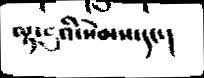ལྟ་བུའི་སེམས་དང་།
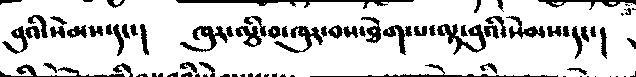བུའི་སེམས་དང་།   ཁུར་ལྕི་བ་ཁུར་བས་ཐེག་པ་ལྟ་བུའི་སེམས་དང་།
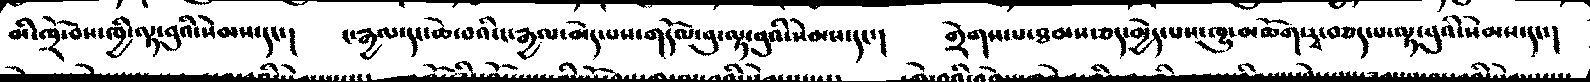མི་ཁྲོ་བོས་ཁྱི་ལྟ་བུའི་སེམས་དང་།  ང་རྒྱལ་དང་ཆེ་བའི་ང་རྒྱལ་མེད་པས་གདོལ་བུ་ལྟ་བུའི་སེམས་དང་།    གྲོགས་པ་ཐམས་ཅད་མྱེད་པས་ཁྱུ་མཆོག་རྭ་བཅད་པ་ལྟ་བུའི་སེམས་དང་།
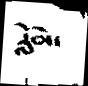རློམ་
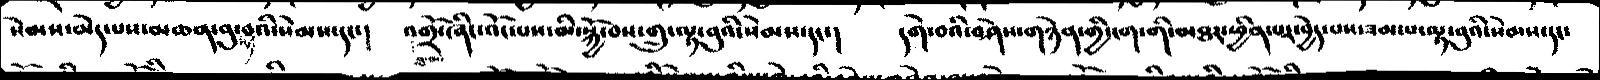སེམས་མེད་པས་མཆན་བུ་བའི་སེམས་དང་།   བླ་མ་འགྲོ་ཞིང་འོང་པས་མི་སྐྱོ་བས་གྲུ་ལྟ་བུའི་སེམས་དང་།   དགེ་བའི་བཤེས་གཉེན་གྱི་ངག་གི་མཐར་ཕྱིན་པར་བྱེད་་པས་ཟམ་པ་ལྟ་བུའི་སེམས་དང་
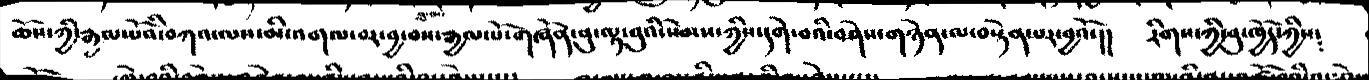ཆོས་ཀྱི་རྒྱལ་པོའི་བཀའ་ལས་མི་འགལ་བར་བྱ་བས་རྒྱལ་པོ་གཞོན་ནུ་ལྟ་བུའི་སེམས་ཀྱིས་དགེ་བའི་བཤེས་གཉེན་ལ་བསྟེན་པར་བྱའོ་།།  རིགས་ཀྱི་བུ་ཁྱོད་ཀྱིས༴
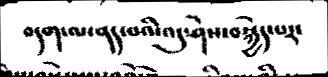བདག་ལ་ནད་པའི་འདུ་ཤེས་བསྐྱེད་པར་
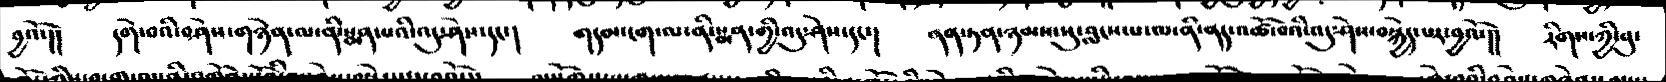བྱའོ་།།  དགེ་བའི་བཤེས་གཉེན་ལ་ནི་སྨན་པའི་འདུ་ཤེས་དང་།  གདམ་ངག་ལ་ནི་སྨན་གྱི་འདུ་ཤེས་དང་།  ནན་ཏན་ཉམས་སུ་བླངས་པ་ལ་ནི་ནད་འཚོ་བའི་འདུ་ཤེས་བསྐྱེད་པར་བྱའོ་།།   རིགས་ཀྱི་བུ་
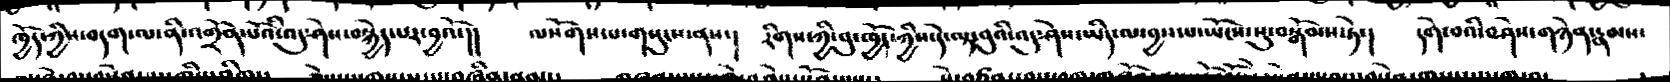ཁྱོད་ཀྱིས་བདག་ལ་་ནི་འགྲོན་པོའི་འདུ་ཤེས་བསྐྱེད་པར་བྱའོ་།།  ལསོགས་པ་གསུངས་ནས་།  རིགས་ཀྱི་བུ་ཁྱོད་ཀྱིས་དེ་ལྟ་བུའི་འདུ་ཤེས་ཡིད་ལ་བྱས་པ་ཡོངས་སུ་བསྒོམས་ཏེ་།   དགེ་བའི་བཤེས་གཉེན་རྣམས་
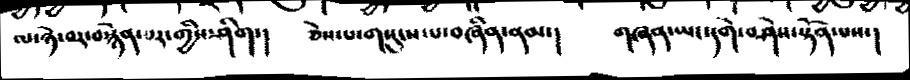ལ་ཉེ་བར་བསྙེན་པར་གྱིས་ཤིག་།   ཅེས་པ་གསུངས་པ་བཞིན་ནམ་།   གཞན་ཡང་དགེ་བཤེས་སྟོན་པས་།
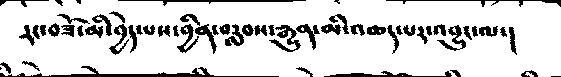རང་བཟོ་མི་བྱེད་པས་བྱིན་བརླབས་རྒྱུན་མི་འཆད་པར་འབྱུང་ལ་།
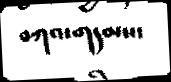བཀའ་གདམས་
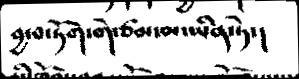བྱ་བ་ཏོག་གེ་ཙམ་མ་ཡིན་ཏེ་།
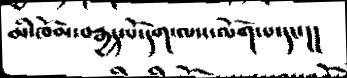མི་ཁོམ་བརྒྱད་པོ་དག་ལས་ལོག་པ་དང་།།
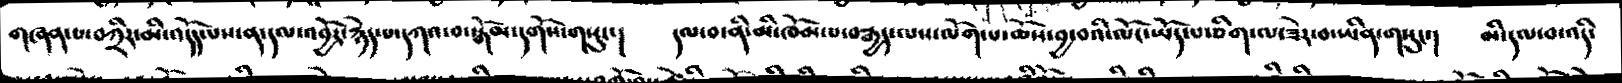གཞན་པ་བཀྲིར་མི་འདོད་པས་ན་དལ་འབྱོར་རྙེད་པ་དཀའ་བ་སྒོམ་དགོས་གསུང་།  དལ་བ་ནི་མི་ཁོམ་པ་བརྒྱད་ལས་ལོག་པ་ཆོས་བྱ་བའི་ལོང་ཡོད་པ་ཅིག་ལ་ཟེར་བ་ཡིན་གསུང་།  མི་དལ་བ་འདི་
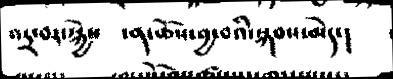འདྲ་བར་སྐྱེས    ་ན་ཆོས་བྱ་བའི་སྐབས་མེད་།
